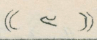(( ༤ ))
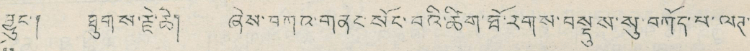བྱུང་། ཐུགས་རྗེ་ཆེ། ཞེས་བཀའ་གནང་སོང་བའི་ཚིག་ཐོ་རགས་བསྡུས་སུ་བཀོད་པ་ལཊ་
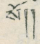སོ།།
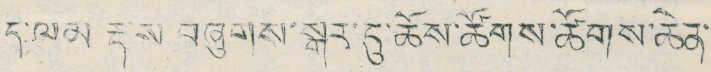ད་ལམ རྡེས བཞུགས་སྒར་དུ་ཆོས་ཚོགས་ཚོགས་ཆེན་
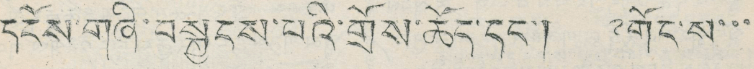དངོས་གཞི་བསྐྱངས་པའི་གྲོས་ཆོད་དང་། ༸གོང་ས་་་
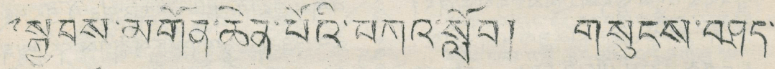༸སྐྱབས་མགོན་ཆེན་པོའི་བཀའ་སློབ། གསུངས་བཤད་
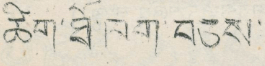ཚིག་ཐེ་ཁག་བཅས་
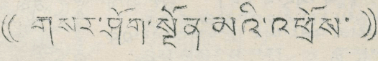(( གསར་ཤོག་སྔོན་མའི་འཕྲོས་ ))
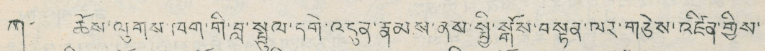ཀ་ ཆོས་ལུགས་ཁག་གི་བླ་སྤྲུལ་དགེ་འདུན་རྣམས་ནས་སྤྱི་སྒོས་བསྟན་ལར་གཅེས་འཛིན་གྱིས་
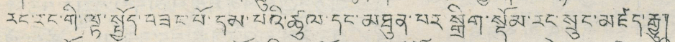རང་རང་གི་ལྟ་སྤྱོད་བཟང་པོ་དམ་པོའི་ཚུལ་དང་མཐུན་པར་སྒྲིག་སྡོམ་རང་སྲུང་མཛད་རྒྱུ།
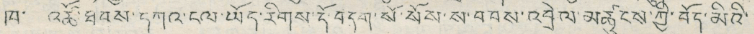ཁ་ འཚོ་ཐབས་དཀའ་ངལ་ཡོད་རིགས་དོ་བདག་སོ་སོས་ས་བབས་འབྲེལ་མཚུངས་ཀྱི་བོད་མིའི་
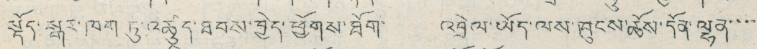སྟོད་སྒར་ཁག ཏུ་འཚུད་ཐབས་བྱེད་ཕྱོགས་ཐོག་ འབྲེལ་ཡོད་ལས་ཁུངས་ཆོས་དོན་ལྷན་་་་
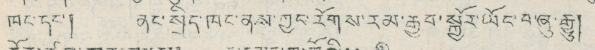ཁང་དང་། ནང་སྲིད་ཁང་ནས་ཀྱང་རོགས་རམ་རྒྱབ་སྐྱོར་ཡོང་བཞུ་རྒྱུ།
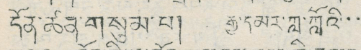དོན་ཚན་གསུམ་པ། རྒྱ་དམར་ཀླ་ཀློའི་་་
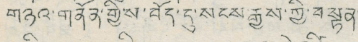གཉའ་གནོན་གྱིས་བོད་དུ་སངས་རྒྱས་ཀྱི་བསྟན་
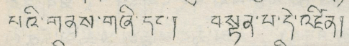པའི་གནས་གཞི་དང་། བསྟན་པ་དེ་འཛིན།
